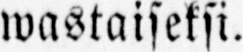wastaiseksi.
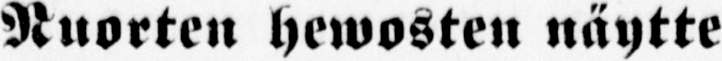— Nuorten hewosten näytte-
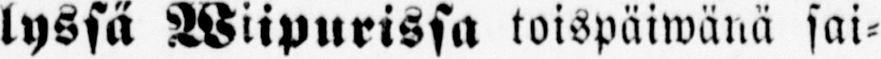lyssä Wiipurissa toispäiwänä sai-
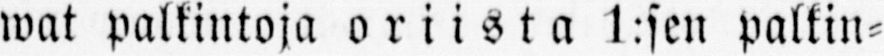wat palkintoja oriista 1:sen palkin-
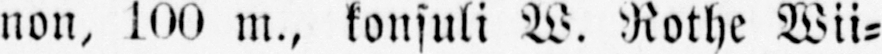non, 100 m., konsuli W. Rothe Wii-
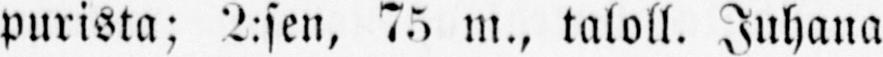purista: 2:sen, 75 m., taloll. Juhana
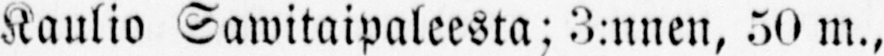Kaulio Sawitaipaleesta: 3:nnen, 50 m.,
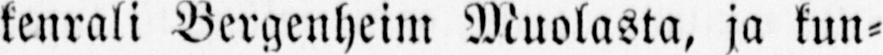kenrali Bergenheim Muolasta, ja kun-
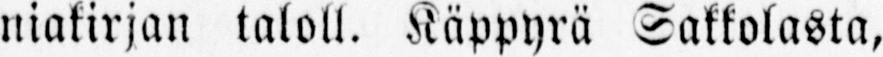niakirjan taloll. Käppyrä Sakkolasta,
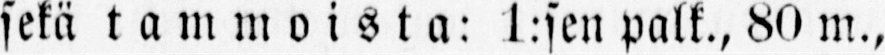sekä tammoista: 1:sen palk., 80 m.,
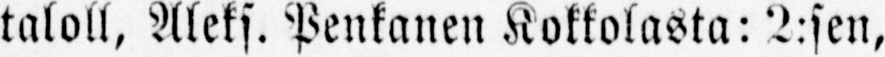taloll, Aleks. Penkanen Kokkolasta: 2:sen,
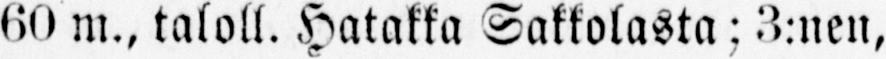60 m., taloll. Hatakka Sakkolasta: 3:nen,
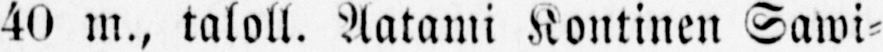40 m., taloll. Aatami Kontinen Sawi-
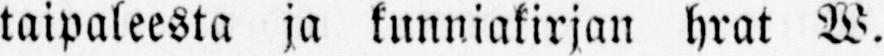taipaleesta ja kunniakirjan hrat W.
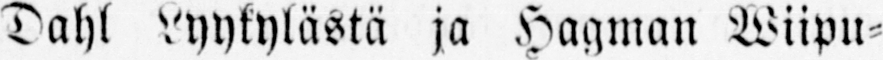Dahl Lyykylästä ja Hagman Wiipu-
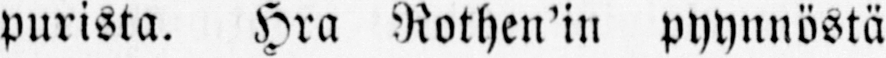purista. Hra Rothen’in pyynnöstä
